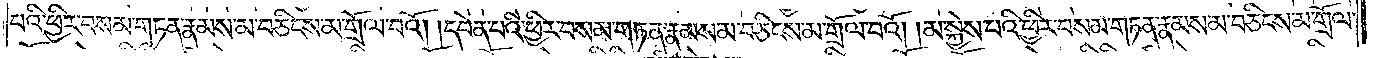པའི་ཕྱིར་བསམ་གཏན་རྣམས་མ་བཅིངས་མ་གྲོལ་བའོ། །དབེན་པའི་ཕྱིར་བསམ་གཏན་རྣམས་མ་བཅིངས་མ་གྲོལ་བའོ། །མ་སྐྱེས་པའི་ཕྱིར་བསམ་གཏན་རྣམས་མ་བཅིངས་མ་གྲོལ་
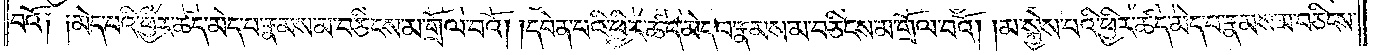བའོ༑ ༑མེད་པའི་ཕྱིར་ཚད་མེད་པ་རྣམས་མ་བཅིངས་མ་གྲོལ་བའོ། །དབེན་པའི་ཕྱིར་ཚད་མེད་པ་རྣམས་མ་བཅིངས་མ་གྲོལ་བའོ། །མ་སྐྱེས་པའི་ཕྱིར་ཚད་མེད་པ་རྣམས་མ་བཅིངས་
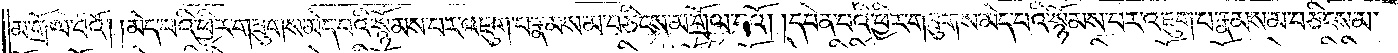མ་གྲོལ་བའོ། །མེད་པའི་ཕྱིར་གཟུགས་མེད་པའི་སྙོམས་པར་འཇུག་པ་རྣམས་མ་བཅིངས་མ་གྲོལ་བའོ། །དབེན་པའི་ཕྱིར་གཟུགས་མེད་པའི་སྙོམས་པར་འཇུག་པ་རྣམས་མ་བཅིངས་མ་
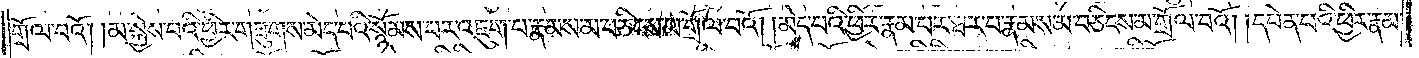གྲོལ་བའོ། །མ་སྐྱེས་པའི་ཕྱིར་གཟུགས་མེད་པའི་སྙོམས་པར་འཇུག་པ་རྣམས་མ་བཅིངས་མ་གྲོལ་བའོ། །མེད་པའི་ཕྱིར་རྣམ་པར་ཐར་པ་རྣམས་མ་བཅིངས་མ་གྲོལ་བའོ། །དབེན་པའི་ཕྱིར་རྣམ་
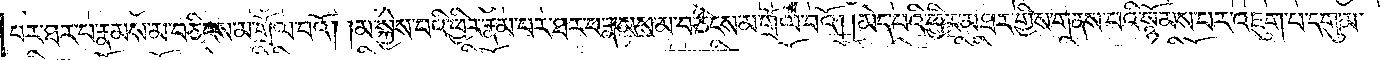པར་ཐར་པ་རྣམས་མ་བཅིངས་མ་གྲོལ་བའོ། །མ་སྐྱེས་པའི་ཕྱིར་རྣམ་པར་ཐར་པ་རྣམས་མ་བཅིངས་མ་གྲོལ་བའོ། །མེད་པའི་ཕྱིར་མཐར་གྱིས་གནས་པའི་སྙོམས་པར་འཇུག་པ་དགུ་མ་
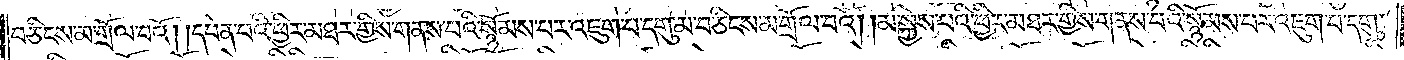བཅིངས་མ་གྲོལ་བའོ། །དབེན་པའི་ཕྱིར་མཐར་གྱིས་གནས་པའི་སྙོམས་པར་འཇུག་པ་དགུ་མ་བཅིངས་མ་གྲོལ་བའོ། །མ་སྐྱེས་པའི་ཕྱིར་མཐར་གྱིས་གནས་པའི་སྙོམས་པར་འཇུག་པ་དགུ་
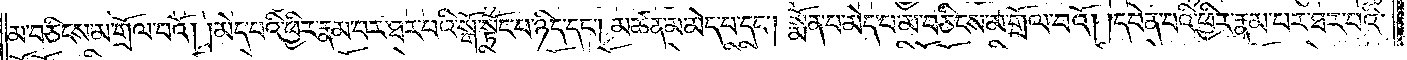མ་བཅིངས་མ་གྲོལ་བའོ། །མེད་པའི་ཕྱིར་རྣམ་པར་ཐར་པའི་སྒོ་སྟོང་པ་ཉིད་དང༌། མཚན་མ་མེད་པ་དང༌། སྨོན་པ་མེད་པ་མ་བཅིངས་མ་གྲོལ་བའོ། །དབེན་པའི་ཕྱིར་རྣམ་པར་ཐར་པའི་
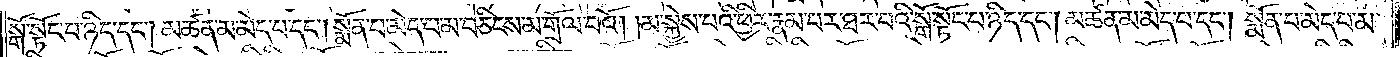སྒོ་སྟོང་པ་ཉིད་དང༌། མཚན་མ་མེད་པ་དང༌། སྨོན་པ་མེད་པ་མ་བཅིངས་མ་གྲོལ་བའོ། །མ་སྐྱེས་པའི་ཕྱིར་རྣམ་པར་ཐར་པའི་སྒོ་སྟོང་པ་ཉིད་དང༌། མཚན་མ་མེད་པ་དང༌། སྨོན་པ་མེད་པ་མ་
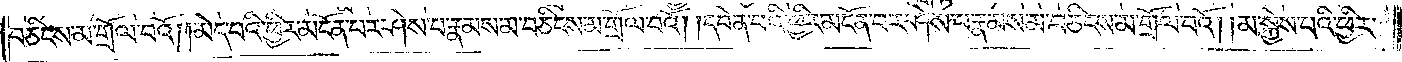བཅིངས་མ་གྲོལ་བའོ། །མེད་པའི་ཕྱིར་མངོན་པར་ཤེས་པ་རྣམས་མ་བཅིངས་མ་གྲོལ་བའོ། །དབེན་པའི་ཕྱིར་མངོན་པར་ཤེས་པ་རྣམས་མ་བཅིངས་མ་གྲོལ་བའོ། །མ་སྐྱེས་པའི་ཕྱིར་
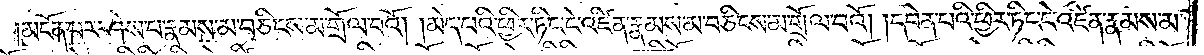མངོན་པར་ཤེས་པ་རྣམས་མ་བཅིངས་མ་གྲོལ་བའོ། །མེད་པའི་ཕྱིར་ཏིང་ངེ་འཛིན་རྣམས་མ་བཅིངས་མ་གྲོལ་བའོ། །དབེན་པའི་ཕྱིར་ཏིང་ངེ་འཛིན་རྣམས་མ་
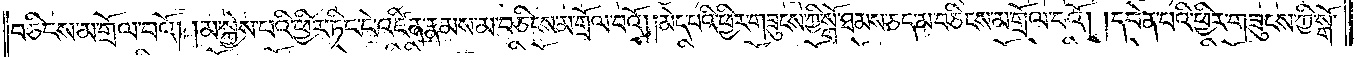བཅིངས་མ་གྲོལ་བའོ། །མ་སྐྱེས་པའི་ཕྱིར་ཏིང་ངེ་འཛིན་རྣམས་མ་བཅིངས་མ་གྲོལ་བའོ། །མེད་པའི་ཕྱིར་གཟུངས་ཀྱི་སྒོ་ཐམས་ཅད་མ་བཅིངས་མ་གྲོལ་བའོ། །དབེན་པའི་ཕྱིར་གཟུངས་ཀྱི་སྒོ་
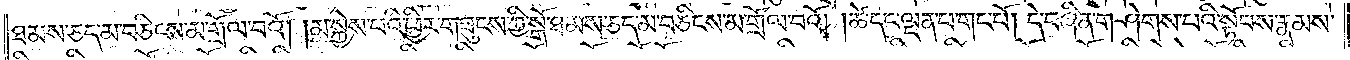ཐམས་ཅད་མ་བཅིངས་མ་གྲོལ་བའོ། །མ་སྐྱེས་པའི་ཕྱིར་གཟུངས་ཀྱི་སྒོ་ཐམས་ཅད་མ་བཅིངས་མ་གྲོལ་བའོ། །ཚེ་དང་ལྡན་པ་གང་པོ། དེ་བཞིན་གཤེགས་པའི་སྟོབས་རྣམས་
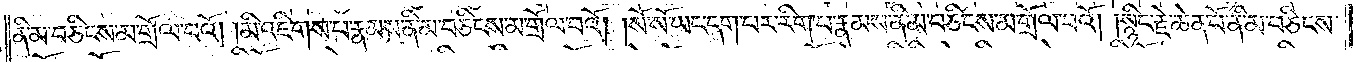ནི་མ་བཅིངས་མ་གྲོལ་བའོ། །མི་འཇིགས་པ་རྣམས་ནི་མ་བཅིངས་མ་གྲོལ་བའོ། །སོ་སོ་ཡང་དག་པར་རིག་པ་རྣམས་ནི་མ་བཅིངས་མ་གྲོལ་བའོ། །སྙིང་རྗེ་ཆེན་པོ་ནི་མ་བཅིངས་
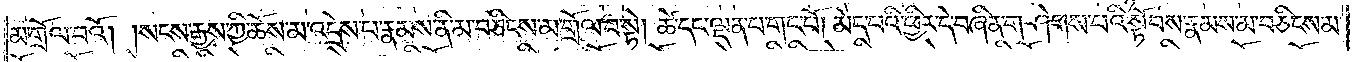མ་གྲོལ་བའོ། །སངས་རྒྱས་ཀྱི་ཆོས་མ་འདྲེས་པ་རྣམས་ནི་མ་བཅིངས་མ་གྲོལ་བ་སྟེ། །ཚེ་དང་ལྡན་པ་གང་པོ། མེད་པའི་ཕྱིར་དེ་བཞིན་གཤེགས་པའི་སྟོབས་རྣམས་མ་བཅིངས་མ་
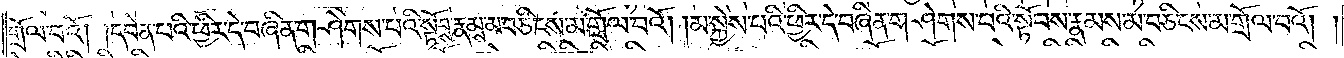གྲོལ་བའོ། །དབེན་པའི་ཕྱིར་དེ་བཞིན་གཤེགས་པའི་སྟོབས་རྣམས་མ་བཅིངས་མ་གྲོལ་བའོ། །མ་སྐྱེས་པའི་ཕྱིར་དེ་བཞིན་གཤེགས་པའི་སྟོབས་རྣམས་མ་བཅིངས་མ་གྲོལ་བའོ། །
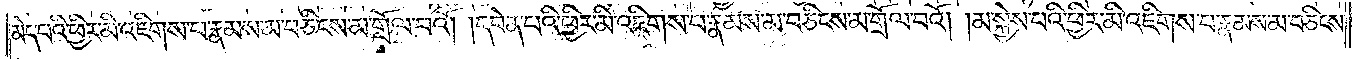མེད་པའི་ཕྱིར་མི་འཇིགས་པ་རྣམས་མ་བཅིངས་མ་གྲོལ་བའོ། །དབེན་པའི་ཕྱིར་མི་འཇིགས་པ་རྣམས་མ་བཅིངས་མ་གྲོལ་བའོ། །མ་སྐྱེས་པའི་ཕྱིར་མི་འཇིགས་པ་རྣམས་མ་བཅིངས་
